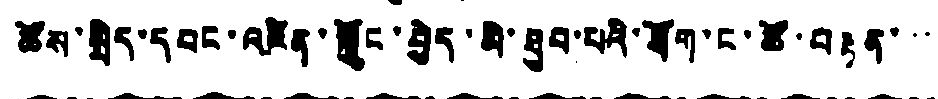ཆོས་སྲིད་དབང་འཛིན་སྐྱོང་བྱེད་མི་ཐུབ་པའི་ཐོག་ང་ཚོ་བརྟན་་་་
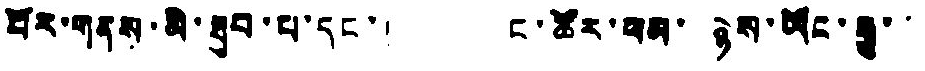པོར་གནས་མི་ཐུབ་པ་དང་། ང་ཚོར་ཕམ་ཉེས་ཡོང་རྒྱུ་་་
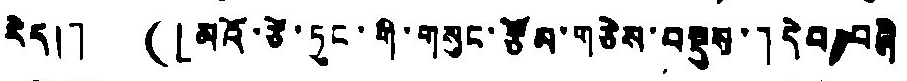རེད།」 (「མའོ་ཙེ་ཏུང་གི་གསུང་རྩོམ་གཅེས་བརྡུས་」དེབ་བཞི་
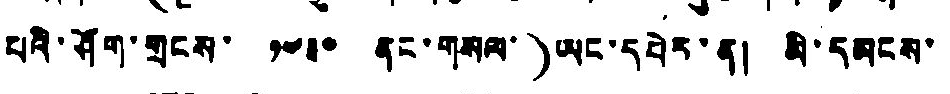པའི་ཤོག་གྲངས་ ༡༤༣༠ ནང་གསལ་)ཡང་དཔེར་ན། མི་དམངས་
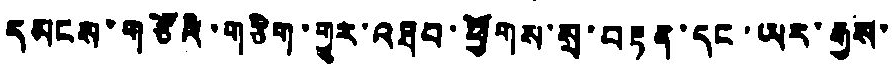དམངས་གཙོའི་གཅིག་གྱུར་འཐབ་ཕྱོགས་སྲ་བརྟན་དང་ཡར་རྒྱས་
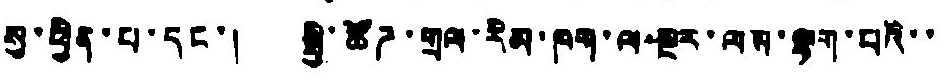སུ་ཕྱིན་པ་དང་། སྤྱི་ཚོཌ་གྲལ་རིམ་ཁག་ལ་སྔར་ལས་ལྷག་པའི་་
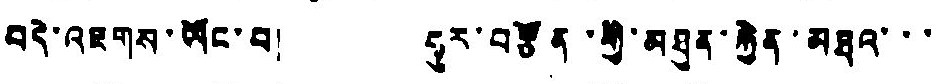བདེ་འཇགས་ཡོང་བ། ཧུར་བརྩོན་གྱི་མཐུན་རྐྱེན་མཐའ་་་
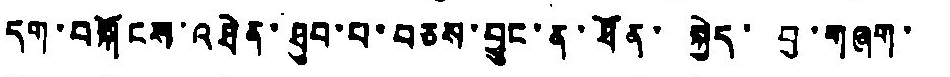དག་བསྐོངས་འཐེན་ཐུབ་པ་བཅས་བྱུང་ན་ཐོན་ སྐྱེད་ བྱ་གཞག་
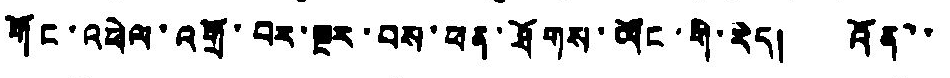གོང་འཕེལ་འགྲོ་བར་སྔར་བས་ཕན་ཐོགས་ཡོང་གི་རེད། འོན་་
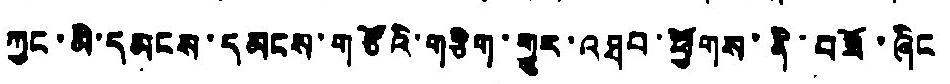ཀྱང་མི་དམངས་དམངས་གཙོའི་གཅིག་གྱུར་འཐབ་ཕྱོགས་ནི་བཟོ་ཞིང
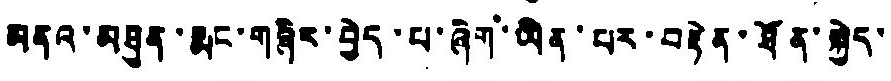མནའ་མཐུན་རྨང་གཞིར་བྱེད་པ་ཞིག་ཡིན་པར་བརྟེན་ཐོན་སྐྱེད་
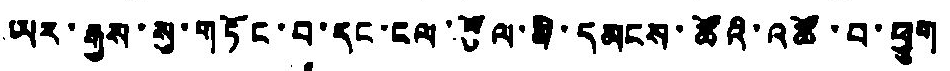ཡར་རྒྱས་སུ་གཏོང་བ་དང་ངལ་རྩོལ་མི་དམངས་ཚོའི་འཚོ་བ་ཕྱུག
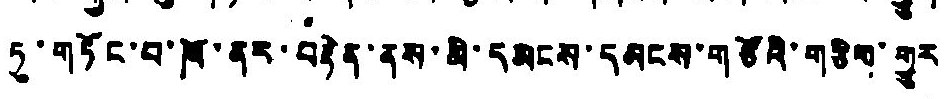ཏུ་གཏོང་བ་ཁོ་ནར་བརྟེན་ནས་མི་དམངས་དམངས་གཙོའི་གཅིག་གྱུར
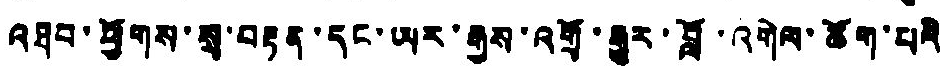འཐབ་ཕྱོགས་སྲ་བརྟན་དང་ཡར་རྒྱས་འགྲོ་རྒྱུར་བློ་འགེལ་ཚོག་པའི
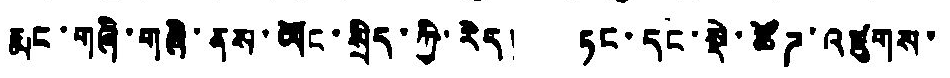རྨང་གཞི་གཞི་ནས་ཡོང་སྲིད་ཀྱི་རེད། ཏང་དང་སྡེ་ཚོཌ་འཛུགས་
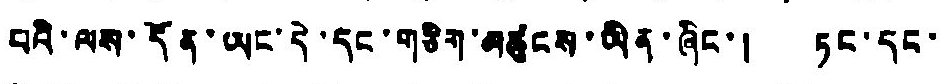པའི་ལས་དོན་ཡང་དེ་དང་གཅིག་མཚུངས་ཡིན་ཞིང་། ཏང་དང་
